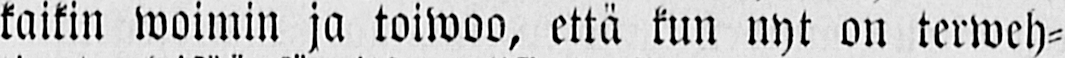kaikin woimin ja toiwoo, että kun nyt on terweh-
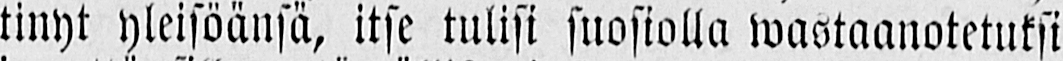tinyt yleisöänsä, itse tulisi suosiolla wastaanotetuksi
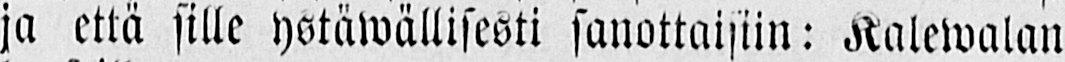ja että sille ystäwällisesti sanottaisiin: Kalewalan
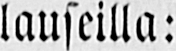lauseilla:
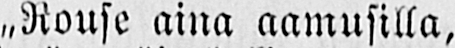„Nouse aina aamusilla,
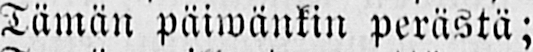Tämän päiwänkin perästä;
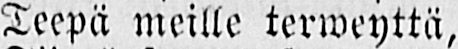Teepä meille terweyttä,
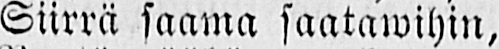Siirrä saama saatawihin,
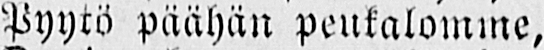Pyytä päähän peukalomme,
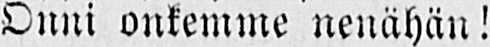Onni onkemme nenähän!
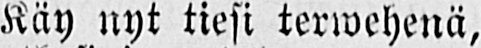Käy nyt tiesi terwehenä,
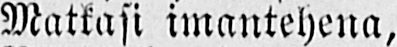Matkasi imantehena,
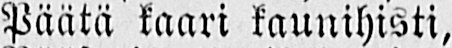Päätä kaari kaunihisti,
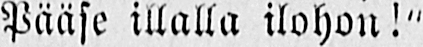Pääse illalla ilohon!"
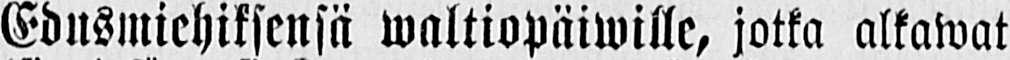Edusmiehiksensä waltiopäiwille, jotka alkawat
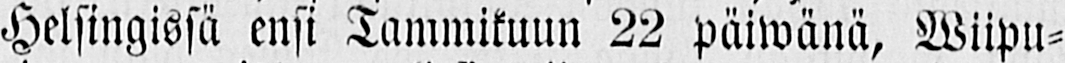Helsingissä ensi Tammikuun 22 päiwänä, Wiipu-
